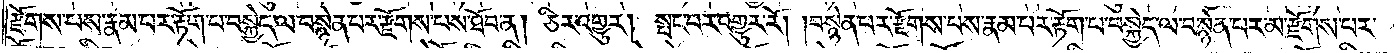རྫོགས་པས་རྣམ་པར་རྟོག་པ་བསྐྱེད་ལ་བསྙེན་པར་རྫོགས་པས་ཐོབ་ན། ཅིར་འགྱུར། སྤང་བར་འགྱུར་རོ། །བསྙེན་པར་རྫོགས་པས་རྣམ་པར་རྟོག་པ་བསྐྱེད་ལ་བསྙེན་པར་མ་རྫོགས་པར་
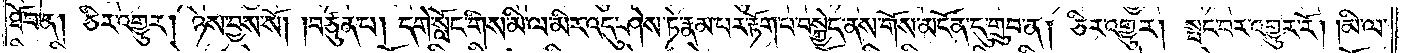ཐོབ་ན། ཅིར་འགྱུར། ཉེས་བྱས་སོ། །བཙུན་པ། དགེ་སློང་གིས་མི་ལ་མིར་འདུ་ཤེས་ཏེ་རྣམ་པར་རྟོག་པ་བསྐྱེད་ནས་གོས་མངོན་དུ་གྲུབ་ན། ཅིར་འགྱུར། སྤང་བར་འགྱུར་རོ། །མི་ལ་
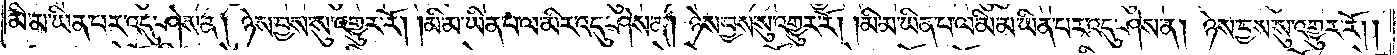མི་མ་ཡིན་པར་འདུ་ཤེས་ན། ཉེས་བྱས་སུ་འགྱུར་རོ། །མི་མ་ཡིན་པ་ལ་མིར་འདུ་ཤེས་ན། ཉེས་བྱས་སུ་འགྱུར་རོ། །མི་མ་ཡིན་པ་ལ་མི་མ་ཡིན་པར་འདུ་ཤེས་ན། ཉེས་བྱས་སུ་འགྱུར་རོ། །
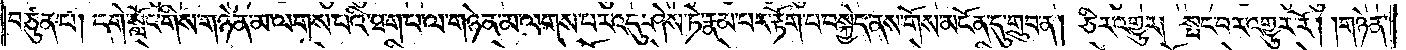བཙུན་པ། དགེ་སློང་གིས་གཉེན་མ་ལགས་པའི་ཐ་ག་པ་ལ་གཉེན་མ་ལགས་པར་འདུ་ཤེས་ཏེ་རྣམ་པར་རྟོག་པ་བསྐྱེད་ནས་གོས་མངོན་དུ་གྲུབ་ན། ཅིར་འགྱུར། སྤང་བར་འགྱུར་རོ། །གཉེན་
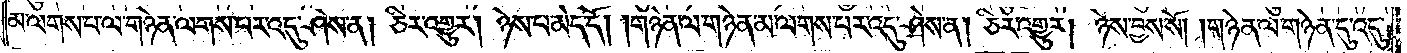མ་ལགས་པ་ལ་གཉེན་ལགས་པར་འདུ་ཤེས་ན། ཅིར་འགྱུར། ཉེས་པ་མེད་དོ། །གཉེན་ལ་གཉེན་མ་ལགས་པར་འདུ་ཤེས་ན། ཅིར་འགྱུར། ཉེས་བྱས་སོ། །གཉེན་ལ་གཉེན་དུ་འདུ་
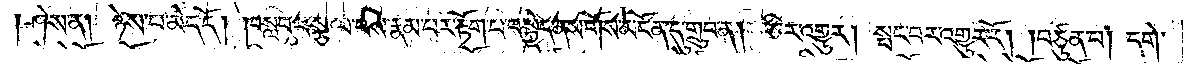ཤེས་ན། ཉེས་པ་མེད་དོ། །བསླབ་པ་སྩལ་པས་རྣམ་པར་རྟོག་པ་བསྐྱེད་ནས་གོས་མངོན་དུ་གྲུབ་ན། ཅིར་འགྱུར། སྤང་བར་འགྱུར་རོ། །བཙུན་པ། དགེ་
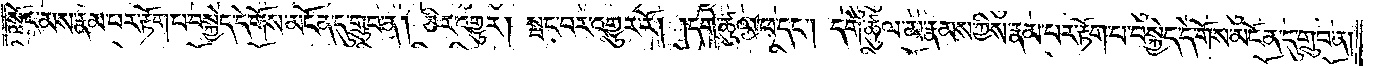སློང་མས་རྣམ་པར་རྟོག་པ་བསྐྱེད་དེ་གོས་མངོན་དུ་གྲུབ་ན། ཅིར་འགྱུར། སྤང་བར་འགྱུར་རོ། །དགེ་ཚུལ་ཕ་དང༌། དགེ་ཚུལ་མ་རྣམས་ཀྱིས་རྣམ་པར་རྟོག་པ་བསྐྱེད་དེ་གོས་མངོན་དུ་གྲུབ་ན།
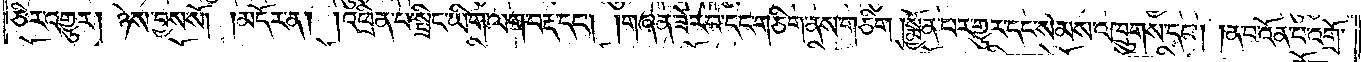ཅིར་འགྱུར། ཉེས་བྱས་སོ།    །མདོར་ན། །འཕྲིན་པ་སྤྲིང་ཡིག་ལག་བརྡ་དང༌། གཞན་ཟེར་བ་དང་གཅིག་ནས་གཅིག །སྨྱོན་པར་གྱུར་དང་སེམས་འཁྲུགས་དང༌། །ན་བ་འོན་པ་འགྲོ་
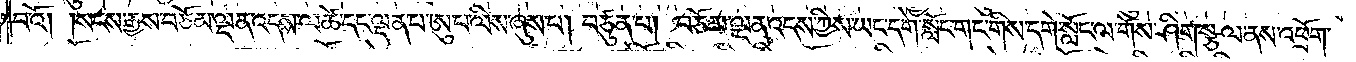པའོ། །སངས་རྒྱས་བཅོམ་ལྡན་འདས་ལ་ཚེ་དང་ལྡན་པ་ཨུ་པ་ལིས་ཞུས་པ། བཙུན་པ། བཅོམ་ལྡན་འདས་ཀྱིས་ཡང་དགེ་སློང་གང་གིས་དགེ་སློང་ལ་གོས་ཤིག་སྩལ་ནས་འཕྲོག་
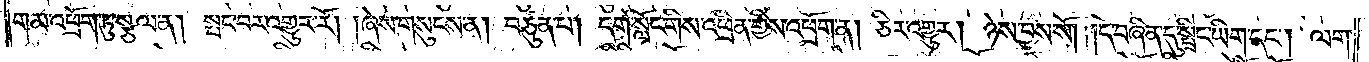གམ་འཕྲོག་ཏུ་སྩལ་ན། སྤང་བར་འགྱུར་རོ། །ཞེས་གསུངས་ན། བཙུན་པ། དགེ་སློང་གིས་འཕྲིན་གྱིས་འཕྲོག་ན། ཅིར་འགྱུར། ཉེས་བྱས་སོ། །དེ་བཞིན་དུ་སྤྲིང་ཡིག་དང༌། ལག་
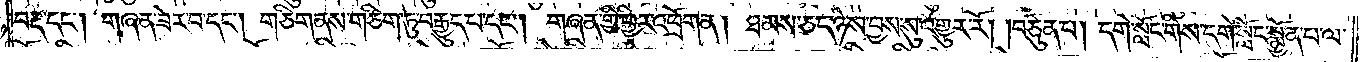བརྡ་དང༌། གཞན་ཟེར་བ་དང༌། གཅིག་ནས་གཅིག་ཏུ་བརྒྱུད་པ་དང༌། གཞན་གྱི་ཕྱིར་འཕྲོག་ན། ཐམས་ཅད་ཉེས་བྱས་སུ་འགྱུར་རོ། །བཙུན་པ། དགེ་སློང་གིས་དགེ་སློང་སྨྱོན་པ་ལ་
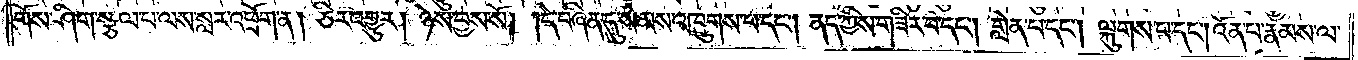གོས་ཤིག་སྩལ་པ་ལས་སླར་འཕྲོག་ན། ཅིར་འགྱུར། ཉེས་བྱས་སོ། །དེ་བཞིན་དུ་སེམས་འཁྲུགས་པ་དང༌། ནད་ཀྱིས་གཟིར་བ་དང༌། གླེན་པ་དང༌། ལྐུགས་པ་དང༌། འོན་པ་རྣམས་ལ་
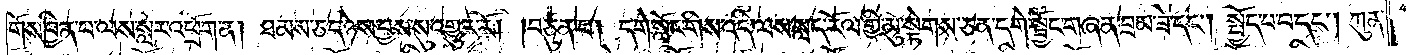གོས་བྱིན་པ་ལས་སླར་འཕྲོག་ན། ཐམས་ཅད་ཉེས་བྱས་སུ་འགྱུར་རོ། །བཙུན་པ། དགེ་སློང་གིས་འདི་ལས་སླད་རོལ་གྱི་མུ་སྟེགས་ཅན་དགེ་སྦྱོང་གཞན་བྲམ་ཟེ་དང༌། སྤྱོད་པ་བ་དང༌། ཀུན་
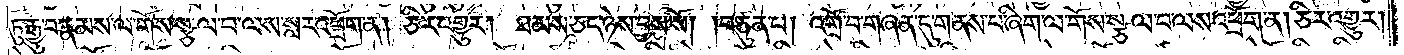ཏུ་རྒྱུ་བ་རྣམས་ལ་གོས་སྩལ་པ་ལས་སླར་འཕྲོག་ན། ཅིར་འགྱུར། ཐམས་ཅད་ཉེས་བྱས་སོ། །བཙུན་པ། འགྲོ་བ་གཞན་དུ་གནས་པ་ཞིག་ལ་གོས་སྩལ་བ་ལས་འཕྲོག་ན། ཅིར་འགྱུར།
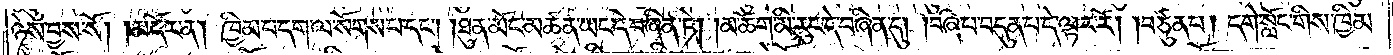ཉེས་བྱས་སོ། །མདོར་ན། ཁྱིམ་པ་དག་ལ་སོགས་པ་དང༌། །ཐུན་མོང་མཚན་ཡང་དེ་བཞིན་ཏེ། །མ་ཆོག་མི་རུང་དེ་བཞིན་དུ། །བཞི་པ་བདུན་པ་དེ་ལྟར་རོ། །བཙུན་པ། དགེ་སློང་གིས་ཁྱིམ་
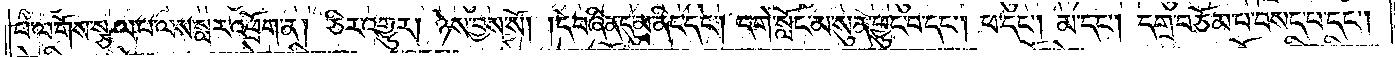པ་ལ་གོས་སྩལ་པ་ལས་སླར་འཕྲོག་ན། ཅིར་འགྱུར། ཉེས་བྱས་སོ། །དེ་བཞིན་དུ་མ་ནིང་དང༌། དགེ་སློང་མ་སུན་ཕྱུང་བ་དང༌། ཕ་དང༌། མ་དང༌། དགྲ་བཅོམ་པ་བསད་པ་དང༌།
